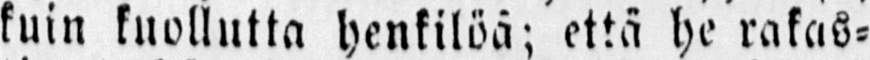kuin kuollutta henkilöä; että he rakas-
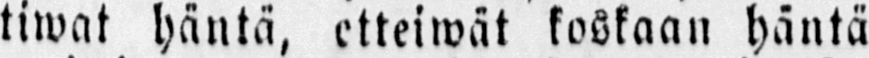tiwat häntä, etteiwät koskaan häntä
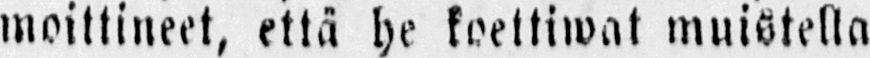moittineet, että he koettiwat muistella
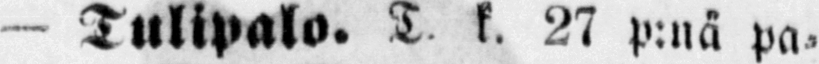— Tulipalo. T k. 27 p:nä pa-
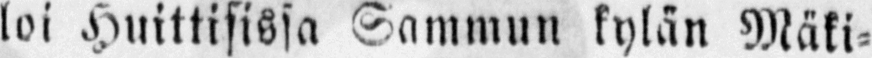loi Huittisissa Sammun kylän Mäki-
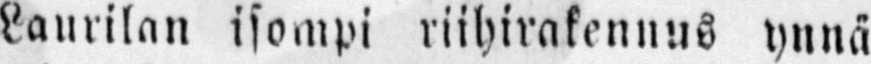Laurilan isompi riihirakennus ynnä
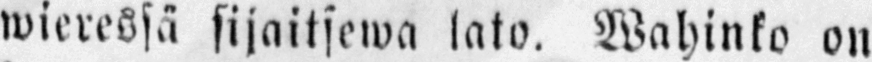wieressä sijaitsewa lato. Wahinko on
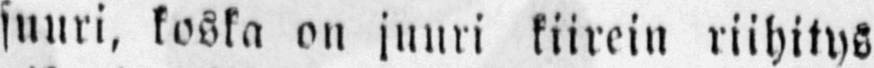suuri, koska on juuri kiirein riihitys
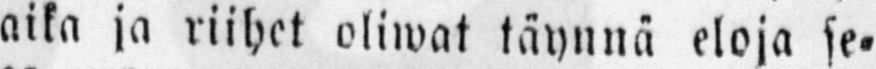aika ja riihet oliwat täynnä eloja se-
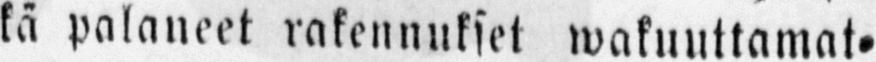kä palaneet rakennukset wakuuttamat-
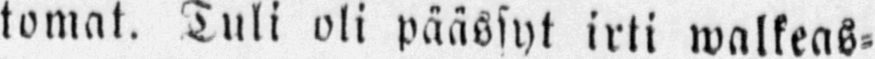towat. Tuli oli päässyt irti walkeas-
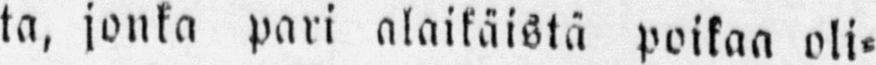ta, jonka pari alaikäistä poikaa oli-
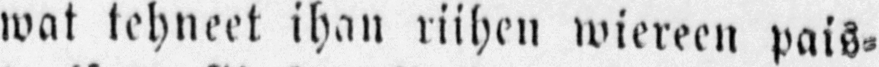wat tehneet ihan riihen wiereen pais-
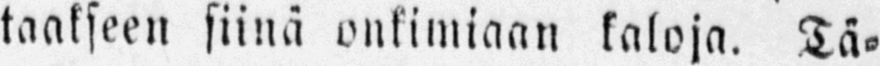taakseen siinä onkimiaan kaloja. Tä-
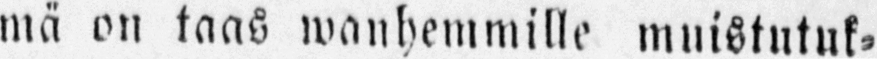mä on taas wanhemmille muistutuk-
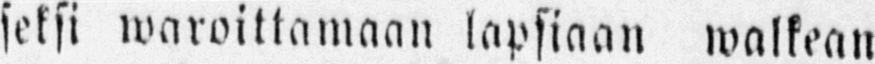seksi waroittamaan lapsiaan walkean
